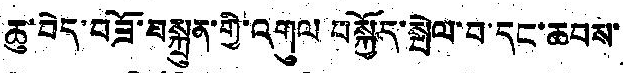ཆུ་བེད་བཟོ་བསྐྲུན་གྱི་འགུལ བསྐྱོད་སྤེལ་བ་དང་ཆབས་
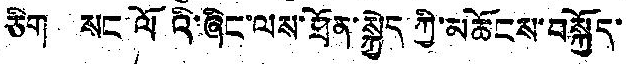ཅིག སང་ལོའི་ཞིང་ལས་ཐོན་སྐྱེད ཀྱི་མཆོངས་བསྐྱོད་
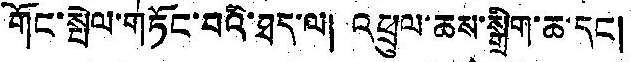གོང་སྤེལ་གཏོང་བའི་ཐད་ལ། འཕྲུལ་ཆས་སྒྲིག་ཆ་དང།
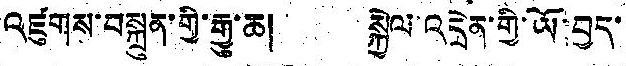འཛུགས་བསྐྲུན་གྱི་རྒྱུ་ཆ། སྐྱེལ་འདྲེན་གྱི་ཡོ་བྱད་
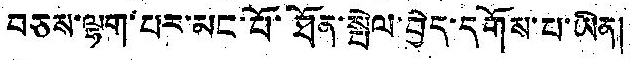བཅས་ལྷག་པར་མང་པོ་ཐོན་སྤེལ་བྱེད་དགོས་པ་ཡིན།
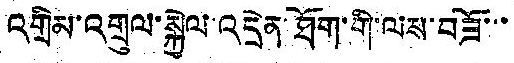འགྲིམ་འགྲུལ་སྐྱེལ་འདྲེན་ཐོག་གི་ལས་བཟོ་་་
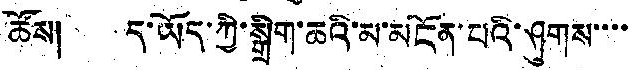ཚོས། ད་ཡོད་ཀྱི་སྒྲིག་ཆའི་མ་མངོན་པའི་ཤུགས་་་་
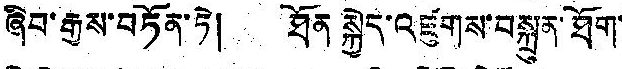ཞིབ་རྒྱས་བཏོན་ཏེ། ཐོན སྐྱེད་འཛུགས་བསྐྲུན་ཐོག་
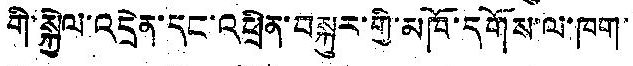གི་སྐྱེལ་འདྲེན་དང་འཕྲིན་བསྐུར་གྱི་མཁོ་དགོས་ལ་ཁག་
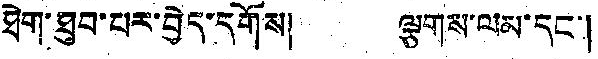ཐེག་ཐུབ་པར་བྱེད་དགོས། ལྕགས་ལམ་དང་།
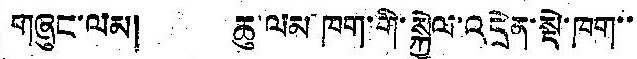གཞུང་ལམ། ཆུ་ལམ་ཁག་གི་སྐྱེལ་འདྲེན་སྡེ་ཁག་་
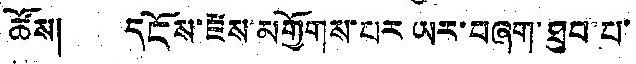ཚོས། དངོས་རྫས་མགྱོགས་པར ཡར་བཞག་ཐུབ་པ་
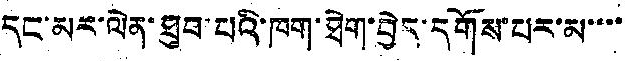དང་མར་ལེན་ཐུབ་པའི་ཁག་ཐེག་བྱེད་དགོས་པར་མ་་་་
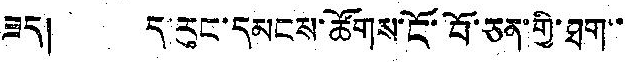ཟད། ད་རུང་དམངས་ཚོགས་ངོ་བོ་ཅན་གྱི་ཐག་་
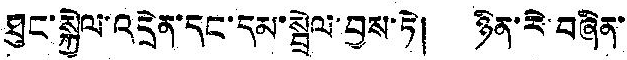ཐུང་སྐྱེལ་འདྲེན་དང་དམ་སྦྲེལ་བྱས་ཏེ། ཉིན་རེ་བཞིན་
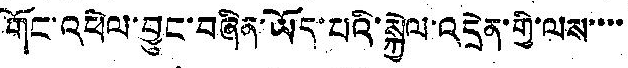གོང་འཕེལ་བྱུང་བ་བཞིན་ཡོད་པའི་སྐྱེལ་འདྲེན་གྱི་ལས་་་་
